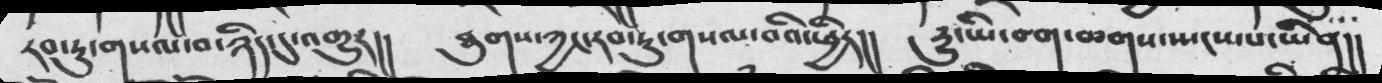རབ་ཏུ་གསལ་བ་ཉིད་དུ་འགྱུར།།     ཐུགས་ཀྱང་རབ་ཏུ་གསལ་བའི་ཕྱིར།།    རྱུ་ཡི་བག་ཆགས་ཡངས་པ་ཡིན།།
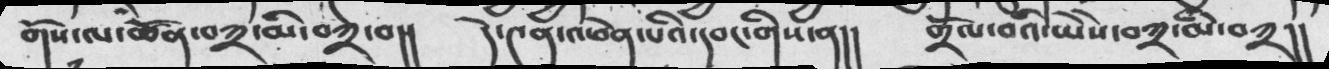གོས་ལ་ཚོན་བཀྲ་མི་བཀྲ་བ།།    དེ་བཞིན་འཕེན་པའི་དབང་གིས་ན།།    གྲོལ་བའི་ཡེེས་བཀྲ་མི་བཀྲ།།
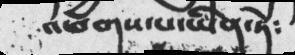འཕགས་པ་ཡིན་ཏེ༴
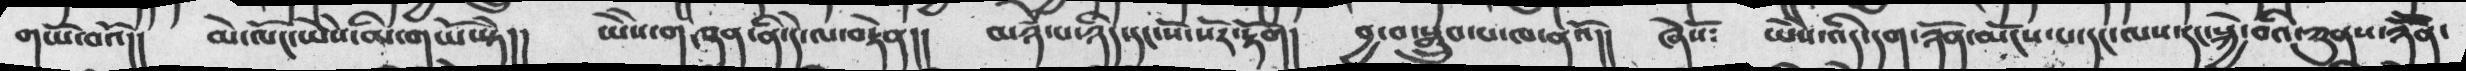གཡོ་་བའོ།།  མེ་ལོང་ཡེེས་མི་གཡོ་སྟེ།།  ཡེེས་གཞན་ནི་དེ་ལ་བརྟེན།།  མཉཾ་པ་ཉིད་དང་སོ་སོར་རྟོག།  བྱ་བ་སྒྲུབ་པ་ཁ་ནའོ།།  ཞེསོ༴  ཡེེས་འདི་དག་ཉོན་མོངས་པ་དང་ལས་དང་སྐྱེ་བའི་ཀུནས་ཉོོན་
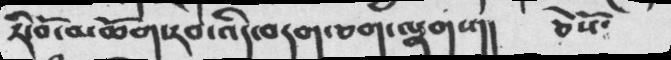རི་བོ་མཆོག་རབ་འདི་བདག་ཅག་ལྷགས།  ཅེསོ༴
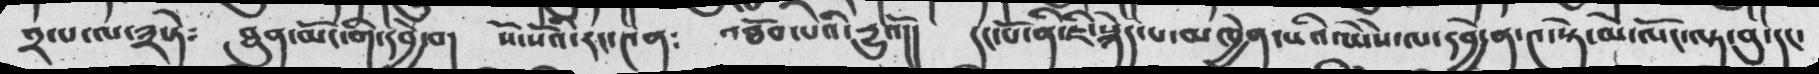༢་པ་ལ་༣་ཏ༴  ཐུན་མོང་གི་དབྱེ་བ།  སོ་སོའི་རང་༤ན༴  འཐོབ་པའི་དྱུའོ།།  དང་པོ་ནི་ཇི་སྙེད་པ་མཁྱེན་པའི་ཡེེ་ལ་དབྱེ་ན་༤་སྟེ་མེ་ལོང་ལྟ་བུ་དང་
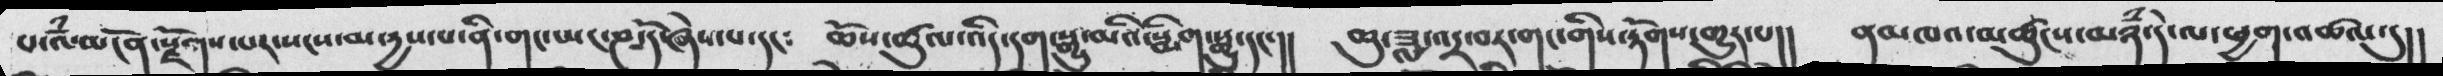པ་འཾ་མངོན་སྫོགས་པར་སངས་མ་རྱས་པ་ནི་གང་ཡང་ཎ་དོ་ཞེས་པ་དང༴   ཆོས་ཚུལ་འདི་དག་སྒྱུ་མའི་སྨིག་སྒྱུ་དང་།།   ཆུ་ཟླ་འདྲ་བར་གང་གིས་རྟོགས་གྱུར་པ།།   ནམཁའ་མཚུངས་མཉཾ་དེ་ལ་ཕྱག་འཚལ་དུ།།
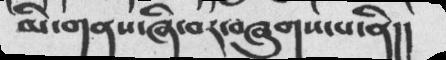མི་གནས་ཞི་བར་བཞུགས་པ་ནི།།
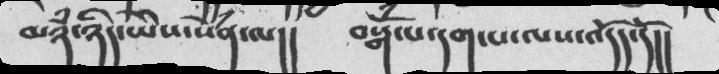མཉཾ་ཉིད་ཡེེས་སེཾན་ལ།།  བསྒོཾ་པ་དག་པ་ལས་འདོད་དོ།།
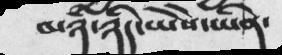མཉཾ་ཉིད་ཡེེས་ཡིན་
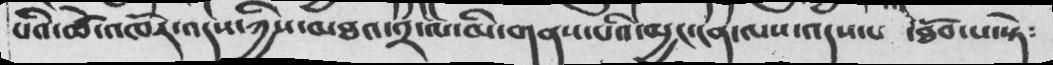པའི་ཚེ་འཁོར་འདས་ཀྱིས་མཐའ་༢་ལ་མི་གནས་པའི་མྱང་ངན་ལས་འདས་པའི་ཐོབ་པ་སྟེ༴
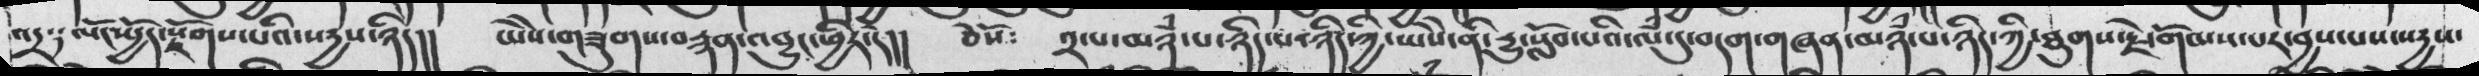འདྲ༑ ལོང་སྤྱོད་སྫོགས་པའི་སདྱས་ཉིད།།  ཡེེས་གཟུགས་བརྙན་འབྱུང་ཕྱིར་དེ།།  ཅེསོ༴  ༢་པ་མཉཾ་པ་ཉིད་པ་ཉིད་ཀྱི་ཡེེས་ནི་དྱུ་སློབ་པའི་ལཾ་དུ་བདག་གཞན་མཉཾ་པ་ཉིད་ཀྱི་ཐུགས་རྗེ་གོམས་པར་བྱས་པས་སདྱས་
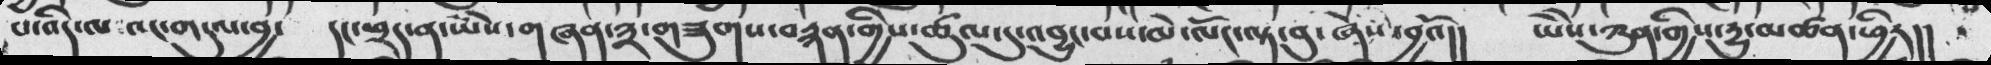པ་བདི་ལ འང་གདུལ་བྱ།  དང་ཕྲད་ན་ཡིས་གཞན་༣་གཟུགས་བརྙན་གྱིས་ཚུལ་དུ་འབྱུང་བས་མེ་ལོང་ལྟ་བུ་ཞེས་བྱའོ།།  ཡེེས་ཀུན་གྱིས་དྱུ་མཚན་ཕྱིར།།
